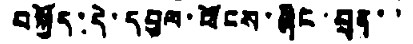བསྐྱོད་དེ་དབུལ་ཕོངས་ཞིང་བྲན་་
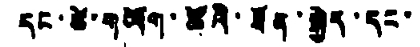དང་ཚེ་གཡོག་ཚོའི་ཐོན་སྐྱེད་དང་
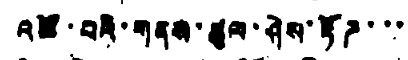འཚོ་བའི་གནས་ཚུལ་ཤེས་རྟོཌ་་་
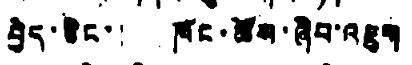བྱེད་ཅིང་། ཁོང་ཚོས་ཞིབ་འཇུག
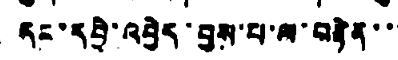དང་དབྱེ་འབྱེད་བྱས་པ་ལ་བརྟེན་་་
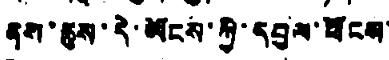ནས་ཆུས་དེ་ཡོངས་ཀྱི་དབུལ་ཕོངས་
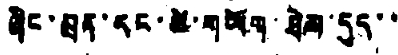ཞིང་བྲན་དང་ཚེ་གཡོག་ཐེས་དུད་་
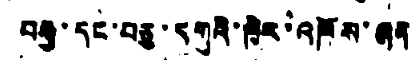བརྒྱ་དང་བཅུ་དགུའི་ཁྱེར་འཁོས་ཞན
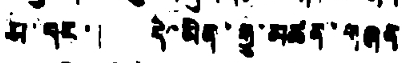ས་དང་། དེ་མིན་རྒྱུ་མཚན་གཞན
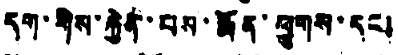དག་གིས་རྐྱེན་པས་རྨོན་ཕྱུགས་དང།
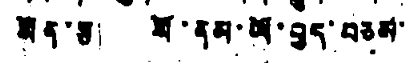སོན་རྩ། སོ་ནམ་ཡོ་བྱད་བཅས་
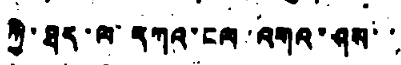ཀྱི་ཐད་ལ་དཀའ་ངལ་འགའ་ཤས་་
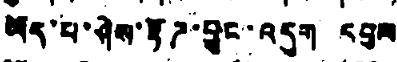ཡོད་པ་ཤེས་རྟོཌ་བྱུང་འདུག དབུལ
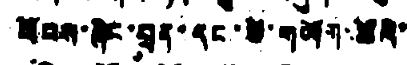ཕོངས་ཞིང་བྲན་དང་ཚེ་གཡོག་ཚོའི་
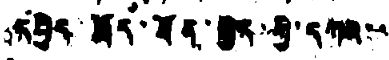དཔྱིད་རྨོད་ཐོན་སྐྱེད་ཀྱི་དཀའ་་་
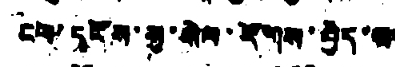ངལ་དངོས་སུ་སེལ་རོགས་བྱེད་པ་་
